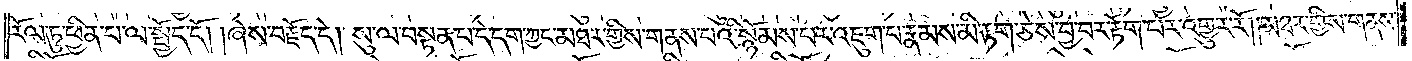རོལ་ཏུ་ཕྱིན་པ་ལ་སྤྱོད་དོ། །ཞེས་བརྗོད་དེ། སུ་ལ་བསྟན་པ་དེ་དག་ཀྱང་མཐར་གྱིས་གནས་པའི་སྙོམས་པར་འཇུག་པ་རྣམས་མི་རྟག་ཅེས་བྱ་བར་རྟོག་པར་འགྱུར་རོ། །མཐར་གྱིས་གནས་
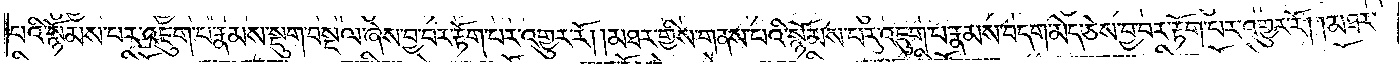པའི་སྙོམས་པར་འཇུག་པ་རྣམས་སྡུག་བསྔལ་ཞེས་བྱ་བར་རྟོག་པར་འགྱུར་རོ། །མཐར་གྱིས་གནས་པའི་སྙོམས་པར་འཇུག་པ་རྣམས་བདག་མེད་ཅེས་བྱ་བར་རྟོག་པར་འགྱུར་རོ། །མཐར་
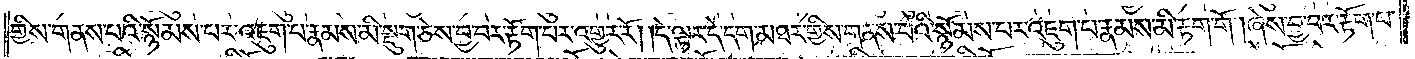གྱིས་གནས་པའི་སྙོམས་པར་འཇུག་པ་རྣམས་མི་སྡུག་ཅེས་བྱ་བར་རྟོག་པར་འགྱུར་རོ། །དེ་ལྟར་དེ་དག་མཐར་གྱིས་གནས་པའི་སྙོམས་པར་འཇུག་པ་རྣམས་མི་རྟག་གོ །ཞེས་བྱ་བར་རྟོག་པ་
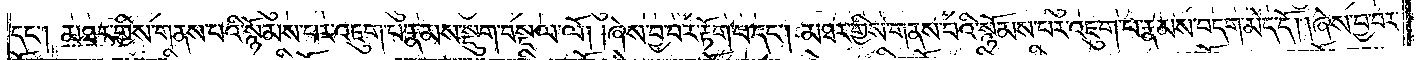དང༌། མཐར་གྱིས་གནས་པའི་སྙོམས་པར་འཇུག་པ་རྣམས་སྡུག་བསྔལ་ལོ། །ཞེས་བྱ་བར་རྟོག་པ་དང༌། མཐར་གྱིས་གནས་པའི་སྙོམས་པར་འཇུག་པ་རྣམས་བདག་མེད་དོ། །ཞེས་བྱ་བར་
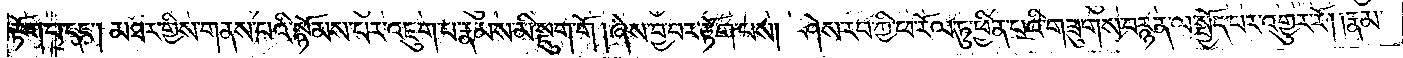རྟོག་པ་དང༌། མཐར་གྱིས་གནས་པའི་སྙོམས་པར་འཇུག་པ་རྣམས་མི་སྡུག་གོ །ཞེས་བྱ་བར་རྟོག་པས། ཤེས་རབ་ཀྱི་ཕ་རོལ་ཏུ་ཕྱིན་པའི་གཟུགས་བརྙན་ལ་སྤྱོད་པར་འགྱུར་རོ། །རྣམ་
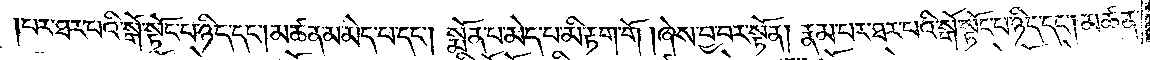པར་ཐར་པའི་སྒོ་སྟོང་པ་ཉིད་དང༌། མཚན་མ་མེད་པ་དང༌། སྨོན་པ་མེད་པ་མི་རྟག་གོ །ཞེས་བྱ་བར་སྟོན། རྣམ་པར་ཐར་པའི་སྒོ་སྟོང་པ་ཉིད་དང༌། མཚན་
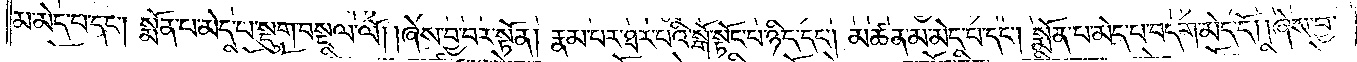མ་མེད་པ་དང༌། སྨོན་པ་མེད་པ་སྡུག་བསྔལ་ལོ། །ཞེས་བྱ་བར་སྟོན། རྣམ་པར་ཐར་པའི་སྒོ་སྟོང་པ་ཉིད་དང༌། མཚན་མ་མེད་པ་དང༌། སྨོན་པ་མེད་པ་བདག་མེད་དོ། །ཞེས་བྱ་
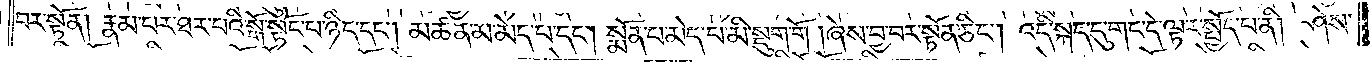བར་སྟོན། རྣམ་པར་ཐར་པའི་སྒོ་སྟོང་པ་ཉིད་དང༌། མཚན་མ་མེད་པ་དང༌། སྨོན་པ་མེད་པ་མི་སྡུག་གོ །ཞེས་བྱ་བར་སྟོན་ཅིང༌། འདི་སྐད་དུ་གང་དེ་ལྟར་སྤྱོད་པ་ནི། ཤེས་
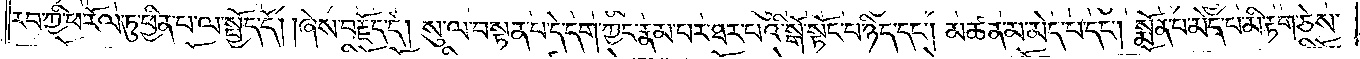རབ་ཀྱི་ཕ་རོལ་ཏུ་ཕྱིན་པ་ལ་སྤྱོད་དོ། །ཞེས་བརྗོད་དེ། སུ་ལ་བསྟན་པ་དེ་དག་ཀྱང་རྣམ་པར་ཐར་པའི་སྒོ་སྟོང་པ་ཉིད་དང༌། མཚན་མ་མེད་པ་དང༌། སྨོན་པ་མེད་པ་མི་རྟག་ཅེས་
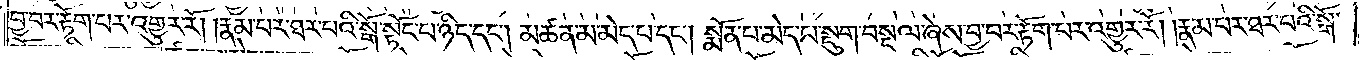བྱ་བར་རྟོག་པར་འགྱུར་རོ། །རྣམ་པར་ཐར་པའི་སྒོ་སྟོང་པ་ཉིད་དང༌། མཚན་མ་མེད་པ་དང༌། སྨོན་པ་མེད་པ་སྡུག་བསྔལ་ཞེས་བྱ་བར་རྟོག་པར་འགྱུར་རོ། །རྣམ་པར་ཐར་པའི་སྒོ་
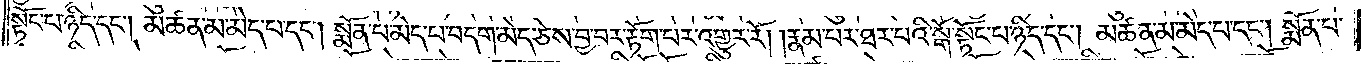སྟོང་པ་ཉིད་དང༌། མཚན་མ་མེད་པ་དང༌། སྨོན་པ་མེད་པ་བདག་མེད་ཅེས་བྱ་བར་རྟོག་པར་འགྱུར་རོ། །རྣམ་པར་ཐར་པའི་སྒོ་སྟོང་པ་ཉིད་དང༌། མཚན་མ་མེད་པ་དང༌། སྨོན་པ་
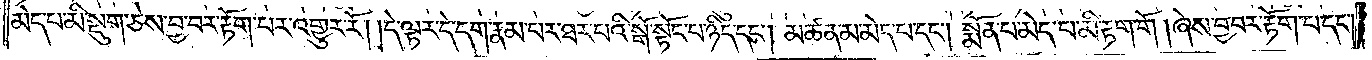མེད་པ་མི་སྡུག་ཅེས་བྱ་བར་རྟོག་པར་འགྱུར་རོ། །དེ་ལྟར་དེ་དག་རྣམ་པར་ཐར་པའི་སྒོ་སྟོང་པ་ཉིད་དང༌། མཚན་མ་མེད་པ་དང༌། སྨོན་པ་མེད་པ་མི་རྟག་གོ །ཞེས་བྱ་བར་རྟོག་པ་དང༌།
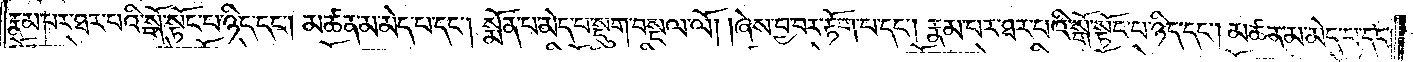རྣམ་པར་ཐར་པའི་སྒོ་སྟོང་པ་ཉིད་དང༌། མཚན་མ་མེད་པ་དང༌། སྨོན་པ་མེད་པ་སྡུག་བསྔལ་ལོ། །ཞེས་བྱ་བར་རྟོག་པ་དང༌། རྣམ་པར་ཐར་པའི་སྒོ་སྟོང་པ་ཉིད་དང༌། མཚན་མ་མེད་པ་དང་
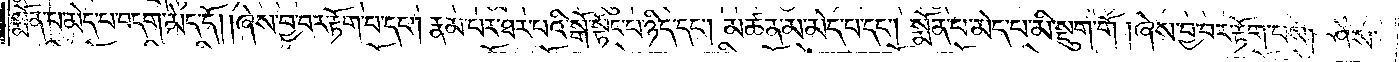སྨོན་པ་མེད་པ་བདག་མེད་དོ། །ཞེས་བྱ་བར་རྟོག་པ་དང༌། རྣམ་པར་ཐར་པའི་སྒོ་སྟོང་པ་ཉིད་དང༌། མཚན་མ་མེད་པ་དང༌། སྨོན་པ་མེད་པ་མི་སྡུག་གོ །ཞེས་བྱ་བར་རྟོག་པས། ཤེས་
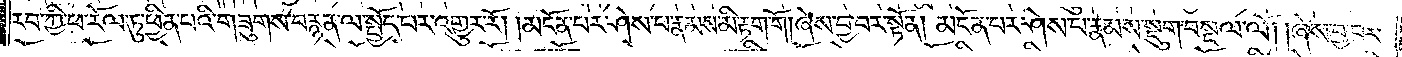རབ་ཀྱི་ཕ་རོལ་ཏུ་ཕྱིན་པའི་གཟུགས་བརྙན་ལ་སྤྱོད་བར་འགྱུར་རོ། །མངོན་པར་ཤེས་པ་རྣམས་མི་རྟག་གོ །ཞེས་བྱ་བར་སྟོན། མངོན་པར་ཤེས་པ་རྣམས་སྡུག་བསྔལ་ལོ། །ཞེས་བྱ་བར་
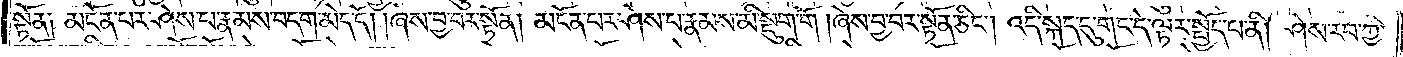སྟོན༑ མངོན་པར་ཤེས་པ་རྣམས་བདག་མེད་དོ། །ཞེས་བྱ་བར་སྟོན། མངོན་པར་ཤེས་པ་རྣམས་མི་སྡུག་གོ །ཞེས་བྱ་བར་སྟོན་ཅིང༌། འདི་སྐད་དུ་གང་དེ་ལྟར་སྤྱོད་པ་ནི། ཤེས་རབ་ཀྱི་
